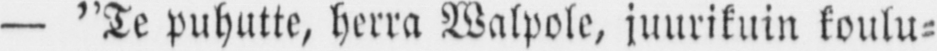— ”Te puhutte, herra Walpole juurikuin koulu-
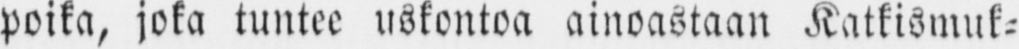poika, joka tuntee uskontoa ainoastaan Katkismuk-
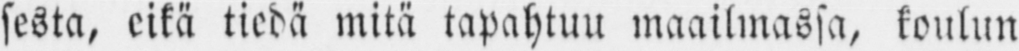sesta, eikä tiedä mitä tapahtuu maailmassa, koulun
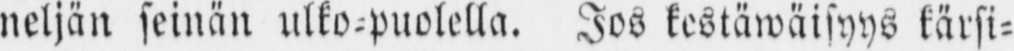neljän seinän ulko-puolella. Jos kestäwäisyys kärsi-
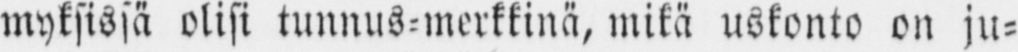myksissä olisi tunnus-merkkinä, mikä uskonto on ju-
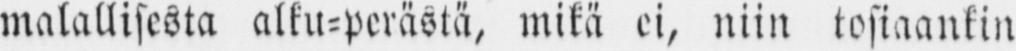malallisesta alku-perästä, mikä ei, niin tosiaankin
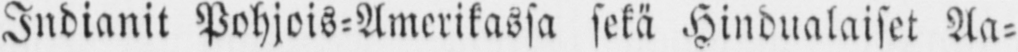Indianit Pohjois-Amerikassa sekä Hindualaiset Aa-
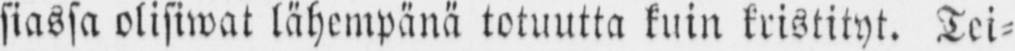siassa olisiwat lähempänä totuutta kuin kristityt. Tei-
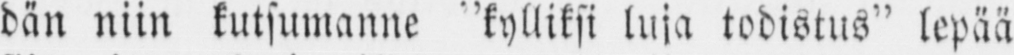dän niin kutsumanne ”kylliksi luja todistus” lepää
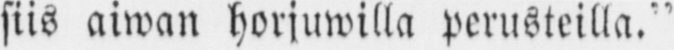siis aiwan horjuwilla perusteilla.
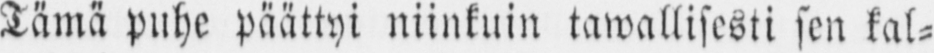Tämä puhe päättyi niinkuin tawallisesti sen kal-
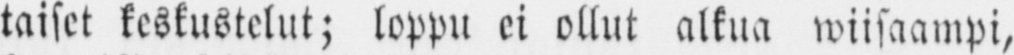taiset keskustelut; loppu ei ollut alkua wiisaampi,
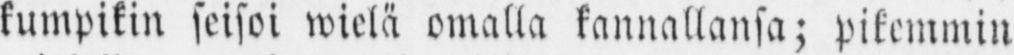kumpikin seisoi wielä omalla kannallansa; pikemmin
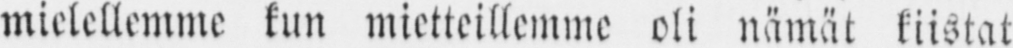mielellemme kun mietteillemme oli nämät kiistat
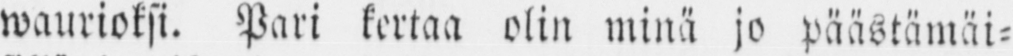waurioksi. Pari kertaa olin minä jo päästämäi-
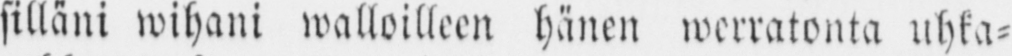silläni wihani walleilleen hänen werratonta uhka-
